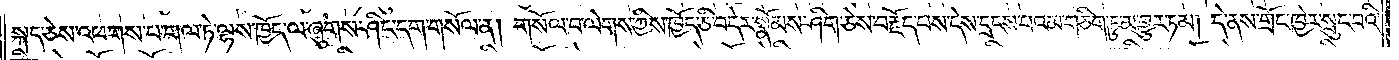སྐད་ཅེས་འཕགས་པ་གལ་ཏེ་ལྷས་ཁྱོད་ལ་ཞུགས་ཤིང་དག་གསོལ་ན། གསོལ་བ་ལེགས་ཀྱིས་ཁྱོད་ཅི་བདེར་སྣོམས་ཤིག་ཅེས་བརྗོད་པས་དེས་དྲངས་པའམ་གཅིག་ཏུ་མ་གྱུར་ཏམ། དེ་ནས་གྲོང་ཁྱེར་སྲུང་བའི་
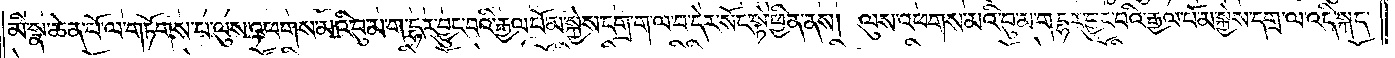མི་སྣ་ཆེན་པོ་ལ་གཏོགས་པ་ལུས་འཕགས་མའི་བུ་མ་ག་དྷར་བྱུང་བའི་རྒྱལ་པོ་མ་སྐྱེས་དགྲ་ག་ལ་བ་དེར་སོང་སྟེ་ཕྱིན་ནས། ལུས་འཕགས་མའི་བུ་མ་ག་དྷར་བྱུང་བའི་རྒྱལ་པོ་མ་སྐྱེས་དགྲ་ལ་འདི་སྐད་
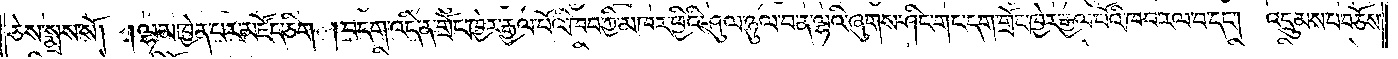ཅེས་སྨྲས་སོ། །ལྷ་མཁྱེན་པར་མཛོད་ཅིག །བདག་འདི་ན་གྲོང་ཁྱེར་རྒྱལ་པོའི་ཁབ་ཀྱི་མཁར་ཕྱིའི་ཤུལ་ཉུལ་བ་ན་ལྷའི་ཞུགས་ཤིང་གང་དག་གྲོང་ཁྱེར་རྒྱལ་པོའི་ཁབ་རལ་བ་དང༌། འདྲུམས་པ་བཅོས་
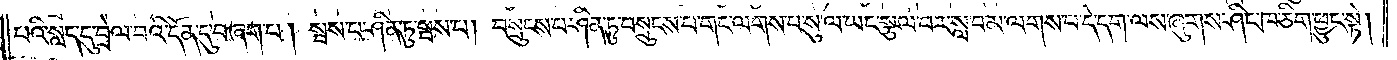པའི་སླད་དུ་བྲེལ་བའི་དོན་དུ་བཞག་པ། སྦས་པ་ཤིན་ཏུ་སྦས་པ། བསྲུངས་པ་ཤིན་ཏུ་བསྲུངས་པ་གང་ལགས་པ་སུ་ལ་ཡང་སྩལ་བར་སླ་བ་མ་ལགས་པ་དེ་དག་ལས་ཞུགས་ཤིང་ཁ་ཅིག་ཕྱུང་སྟེ།
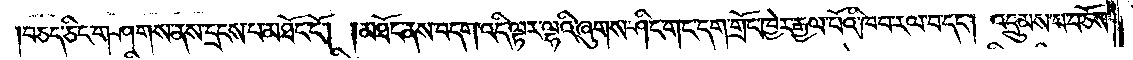བཅད་ཅིང་གཤགས་ནས་དྲངས་པ་མཐོང་ངོ༌། །མཐོང་ནས་བདག་འདི་ལྟར་ལྷའི་ཞུགས་ཤིང་གང་དག་གྲོང་ཁྱེར་རྒྱལ་པོའི་ཁབ་རལ་བ་དང༌། འདྲུམས་པ་བཅོས་
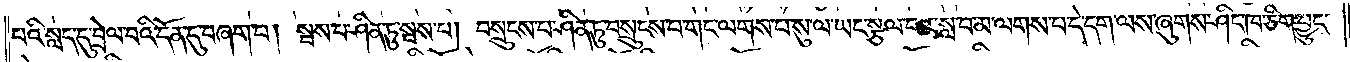པའི་སླད་དུ་བྲེལ་བའི་དོན་དུ་བཞག་པ། སྦས་པ་ཤིན་ཏུ་སྦས་པ། བསྲུངས་པ་ཤིན་ཏུ་བསྲུངས་པ་གང་ལགས་པ་སུ་ལ་ཡང་སྩལ་བར་སླ་བ་མ་ལགས་པ་དེ་དག་ལས་ཞུགས་ཤིང་ཁ་ཅིག་ཕྱུང་
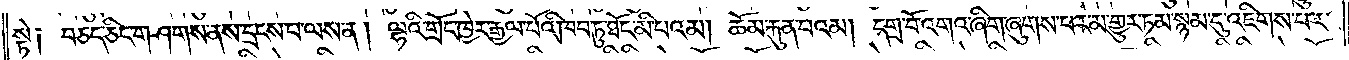སྟེ༑ བཅད་ཅིང་གཤགས་ནས་དྲངས་པ་ལས་ན། ལྷའི་གྲོང་ཁྱེར་རྒྱལ་པོའི་ཁབ་ཏུ་ཐོང་མི་པའམ། ཆོམ་རྐུན་པའམ། དགྲ་བོ་འགའ་ཞིག་ཞུགས་པར་མ་གྱུར་ཏམ་སྙམ་དུ་འཇིགས་པར་
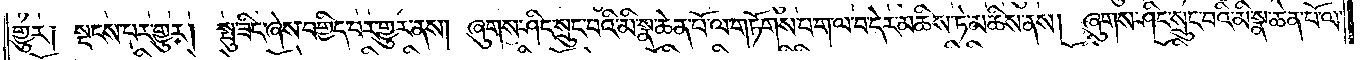གྱུར༑ སྔངས་པར་གྱུར། སྤུ་ཟིང་ཞེས་བགྱིད་པར་གྱུར་ནས། ཞུགས་ཤིང་སྲུང་བའི་མི་སྣ་ཆེན་པོ་ལ་གཏོགས་པ་ག་ལ་བ་དེར་མཆིས་ཏེ་མཆིས་ནས། ཞུགས་ཤིང་སྲུང་བའི་མི་སྣ་ཆེན་པོ་ལ་
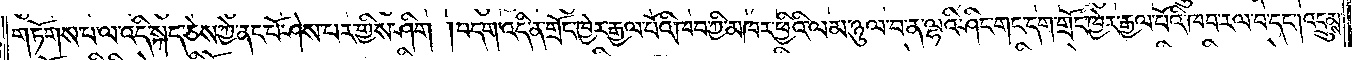གཏོགས་པ་ལ་འདི་སྐད་ཅེས་ཀྱེ་ནང་པོ་ཤེས་པར་གྱིས་ཤིག །བདག་འདི་ན་གྲོང་ཁྱེར་རྒྱལ་པོའི་ཁབ་ཀྱི་མཁར་ཕྱིའི་ལམ་ཉུལ་བ་ན་ལྷའི་ཤིང་གང་དག་གྲོང་ཁྱེར་རྒྱལ་པོའི་ཁབ་རལ་བ་དང༌། འདྲུམས་
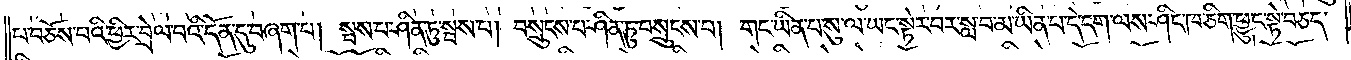པ་བཅོས་པའི་ཕྱིར་བྲེལ་བའི་དོན་བཞག་པ། སྦས་པ་ཤིན་ཏུ་སྦས་པ། བསྲུངས་པ་ཤིན་ཏུ་བསྲུངས་པ། གང་ཡིན་པ་སུ་ལ་ཡང་སྟེར་བར་སླ་བ་མ་ཡིན་པ་དེ་དག་ལས་ཤིང་ཁ་ཕྱུང་སྟེ་བཅད་
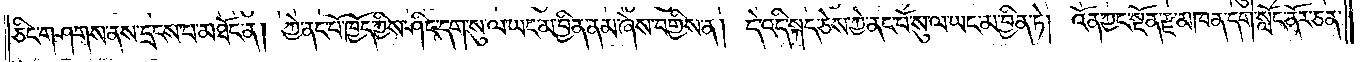ཅིང་གཤགས་ནས་དྲངས་པ་མཐོང་ན། ཀྱེ་ནང་པོ་ཁྱོད་ཀྱིས་ཤིང་དག་སུ་ལ་ཡང་མ་བྱིན་ནམ་ཞེས་བགྱིས་ན། དེ་འདི་སྐད་ཅེས་ཀྱེ་ནང་པོ་སུ་ལ་ཡང་མ་བྱིན་ཏེ། འོན་ཀྱང་སྔོན་རྫ་མཁན་དགེ་སློང་ནོར་ཅན་
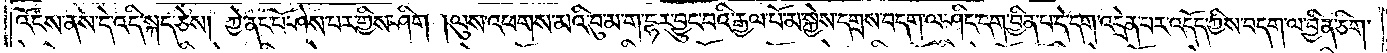འོངས་ནས་དེ་འདི་སྐད་ཅེས། ཀྱེ་ནང་པོ་ཤེས་པར་གྱིས་ཤིག །ལུས་འཕགས་མའི་བུ་མ་ག་དྷར་བྱུང་བའི་རྒྱལ་པོ་མ་སྐྱེས་དགྲས་བདག་ལ་ཤིང་དག་བྱིན་པ་དེ་དག་འདྲེན་པར་འདོད་ཀྱིས་བདག་ལ་བྱིན་ཅིག་
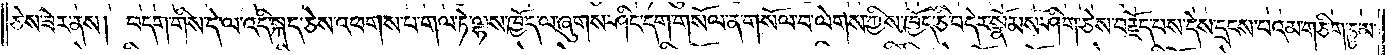ཅེས་ཟེར་ནས། བདག་གིས་དེ་ལ་འདི་སྐད་ཅེས་འཕགས་པ་གལ་ཏེ་ལྷས་ཁྱོད་ལ་ཞུགས་ཤིང་དག་གསོལ་ན་གསོལ་བ་ལེགས་ཀྱིས་ཁྱོད་ཅི་བདེར་སྣོམས་ཤིག་ཅེས་བརྗོད་པས་དེས་དྲངས་པའམ་གཅིག་ཏུ་མ་
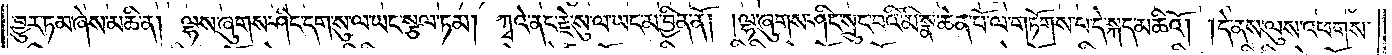བྱུར་ཏམ་ཞེས་མཆི་ན། ལྷས་ཞུགས་ཤིང་དག་སུ་ལ་ཡང་སྩལ་ཏམ། ཀྭའེ་ནང་རྗེ་སུ་ལ་ཡང་མ་བྱིན་ནོ། །ལྷ་ཞུགས་ཤིང་སྲུང་བའི་མི་སྣ་ཆེན་པོ་ལ་གཏོགས་པ་དེ་སྐད་མཆིའོ། །དེ་ནས་ལུས་འཕགས་
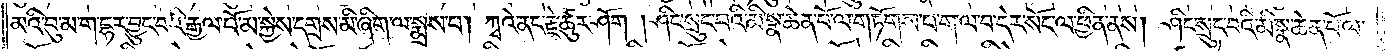མའི་བུ་མ་ག་དྷར་བྱུང་བའི་རྒྱལ་པོ་མ་སྐྱེས་དགྲས་མི་ཞིག་ལ་སྨྲས་པ། ཀྭའེ་ནང་རྗེ་ཚུར་ཤོག །ཤིང་སྲུང་བའི་མི་སྣ་ཆེན་པོ་ལ་གཏོགས་པ་ག་ལ་བ་དེར་སོང་ལ་ཕྱིན་ནས། ཤིང་སྲུང་བའི་མི་སྣ་ཆེན་པོ་ལ་
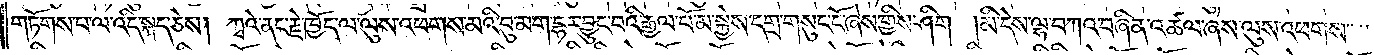གཏོགས་པ་ལ་འདི་སྐད་ཅེས། ཀྭའེ་ནང་རྗེ་ཁྱོད་ལ་ལུས་འཕགས་མའི་བུ་མ་ག་དྷར་བྱུང་བའི་རྒྱལ་པོ་མ་སྐྱེས་དགྲ་གསུང་ངོ་ཞེས་གྱིས་ཤིག །མི་དེས་ལྷ་བཀའ་བཞིན་འཚལ་ཞེས་ལུས་འཕགས་
